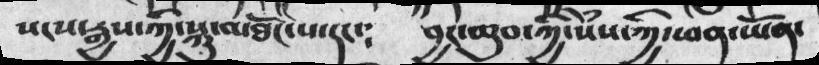སངས་དྱས་ཀྱི་སྐུ་མཐོང་པ་དང་༴  བྱང་ཆུབ་ཀྱི་སེཾས་ཀྱི་ཕན་ཡོན་
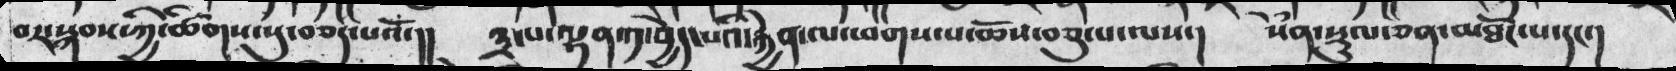བར་སྐབས་ཀྱི་ཚིགས་སུ་བཅད་པའོ་།།  ༣་པ་ལྷན་༡་བྱེད་པའི་རྐྱེན་ལ་ཕགས་པ་ཆོས་བཅུ་པ་ལས་།  སེཾན་སྡུལ་ཅན་མཐོང་པ་དང་།
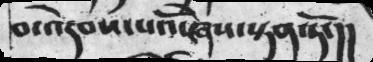བ་འདེབས་པའི་ཞེས་སྟན་ཏོ་།།
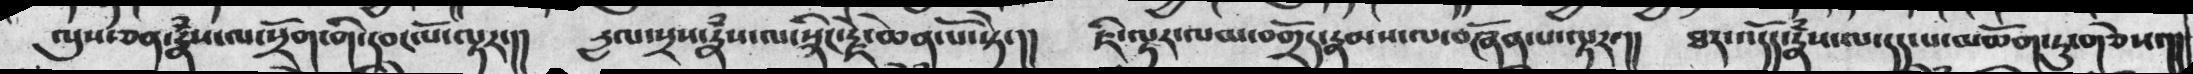ལུས་ཅན་རྣཾས་ལ་སྲོག་གི་དབང་ལོ་ལྟར་།།  དྱལ་སྲས་རྣཾས་ལ་སྙིང་རྗེ་ཆེན་པོ་སྟེ་།   ཇི་ལྟར་ལམ་བགྲོད་རྣམས་ལ་བཞོན་པ་ལྟར་།།  ཐར་འདོད་རྣཾས་ལ་དད་པ་མཆོག་ཏུ་གཅེས་།།
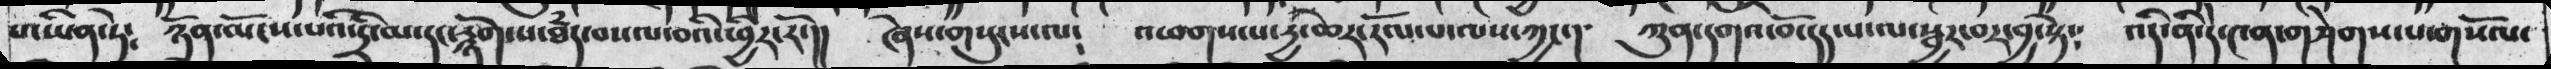པ་ཡིན་ཏེ༴  ཉོན་མོངས་པའི་དྲི་མ་དང་རྙོག་པ་ཐཾད་བསལ་བའི་ཕྱིར་རོ་།།   ཞེས་གསུངས་ལ༴  འཕགས་པ་དྱ་ཆེར་རོལ་པ་ལས་ཀྱང་།  ཀུན་དགའ་བོ་དད་པ་ལ་སྦྱར་བར་བྱ་སྟེ༴  འདི་ནི་དེ་༤ན་གཤེགས་པ་གསོལ་
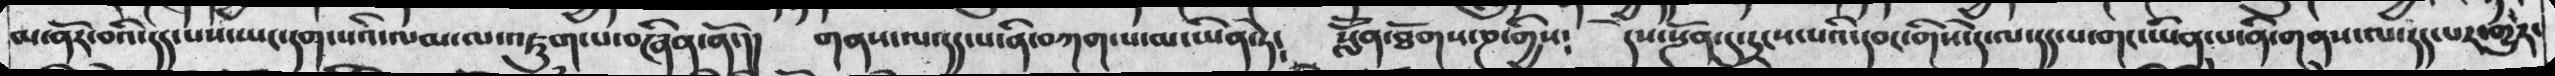མ་ནོར་བའི་དད་པས་ཡང་དག་པའི་ལམ་ལ་འཇུག་པ་བཞིན་ནོ་།།   གནས་ལ་དད་ནི་བཀག་པ་མ་ཡིན་ཏེ༴  སློོན་ཐོགས་ཎ་གྱིས༴   དེས་སྔོན་དུ་དྲངས་པའི་དབང་གིས་དེ་ལ་དད་པ་གང་ཇཡིན་པ་ནི་གནས་ལ་དད་པར་གྱུར་
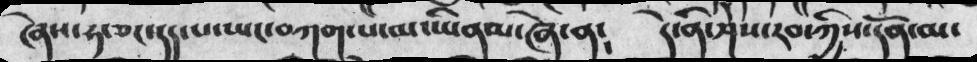ཞེས་ཧ་ཅང་དད་པ་ཡང་བཀག་པ་མ་ཡིནམ་ཞེ་ན༴    དེ་ནི་ཤེས་རབ་ཀྱིས་དོན་མ་
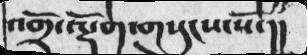འགྲོ་ལྡོག་གསུངས་སོ་།།
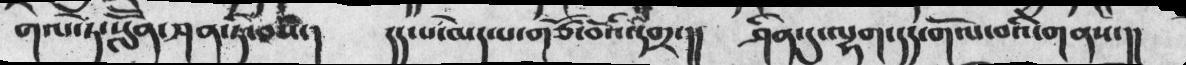གལ་ཏེ་བློོན་ཤན་ཏི་བས་།།     དད་པ་མེད་པ་གཙོ་བོའི་དགྲ་།།  ཤིན་དུ་ལྷག་དད་གོལ་བའི་གནས་།།
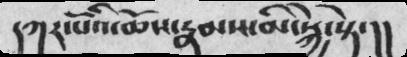དཀར་པོའི་ཆོས་རྣམས་མི་སྐྱེ་སྟེ་།།
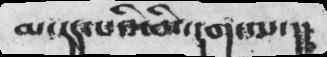མ་དད་པའི་མི་དག་ལ་།།
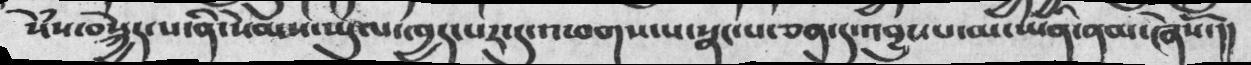སེསྃ་བསྐྱེདཔ་ནི་སེམས་ཡུལ་ཁྱད་པར་དུ་འཕགས་པ་སྣང་པ་ཅན་དུ་འབྱུང་པ་མ་ཡིན་ནམ་ཞེསོ་།།
